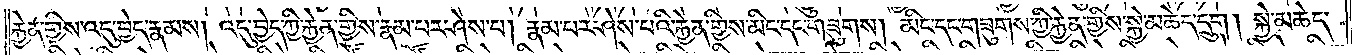རྐྱེན་གྱིས་འདུ་བྱེད་རྣམས། འདུ་བྱེད་ཀྱི་རྐྱེན་གྱིས་རྣམ་པར་ཤེས་པ། རྣམ་པར་ཤེས་པའི་རྐྱེན་གྱིས་མིང་དང་གཟུགས། མིང་དང་གཟུགས་ཀྱི་རྐྱེན་གྱིས་སྐྱེ་མཆེད་དྲུག། སྐྱེ་མཆེད་
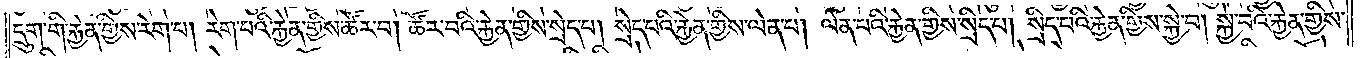དྲུག་གི་རྐྱེན་གྱིས་རེག་པ། རེག་པའི་རྐྱེན་གྱིས་ཚོར་བ། ཚོར་བའི་རྐྱེན་གྱིས་སྲེད་པ། སྲེད་པའི་རྐྱེན་གྱིས་ལེན་པ། ལེན་པའི་རྐྱེན་གྱིས་སྲིད་པ། སྲིད་པའི་རྐྱེན་གྱིས་སྐྱེ་བ། སྐྱེ་བའི་རྐྱེན་གྱིས་
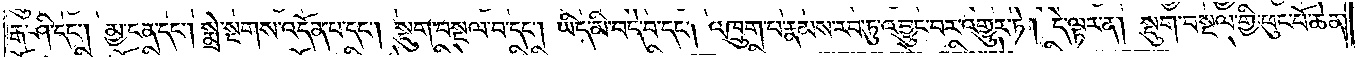རྒ་ཤི་དང༌། མྱ་ངན་དང༌། སྨྲེ་སྔགས་འདོན་པ་དང༌། སྡུག་བསྔལ་བ་དང༌། ཡིད་མི་བདེ་བ་དང༌། འཁྲུག་པ་རྣམས་རབ་ཏུ་འབྱུང་བར་འགྱུར་ཏེ། དེ་ལྟར་ན། སྡུག་བསྔལ་གྱི་ཕུང་པོ་ཆེན་
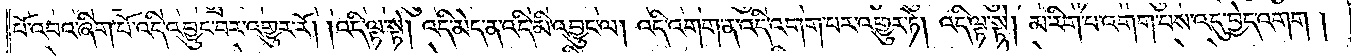པོ་འབའ་ཞིག་པོ་འདི་འབྱུང་བར་འགྱུར་རོ། །འདི་ལྟ་སྟེ། འདི་མེད་ན་འདི་མི་འབྱུང་ལ། འདི་འགག་ན་འདི་འགག་པར་འགྱུར་ཏེ། འདི་ལྟ་སྟེ། མ་རིག་པ་འགག་པས་འདུ་བྱེད་འགག །
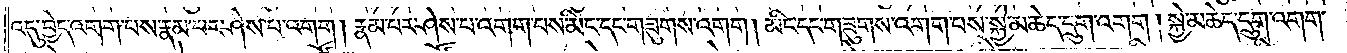འདུ་བྱེད་འགག་པས་རྣམ་པར་ཤེས་པ་འགག །རྣམ་པར་ཤེས་པ་འགག་པས་མིང་དང་གཟུགས་འགག །མིང་དང་གཟུགས་འགག་པས་སྐྱེ་མཆེད་དྲུག་འགག །སྐྱེ་མཆེད་དྲུག་འགག་
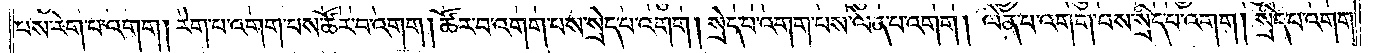པས་རེག་པ་འགག །རེག་པ་འགག་པས་ཚོར་བ་འགག །ཚོར་བ་འགག་པས་སྲེད་པ་འགག །སྲེད་པ་འགག་པས་ལེན་པ་འགག །ལེན་པ་འགག་པས་སྲིད་པ་འགག །སྲིད་པ་འགག་
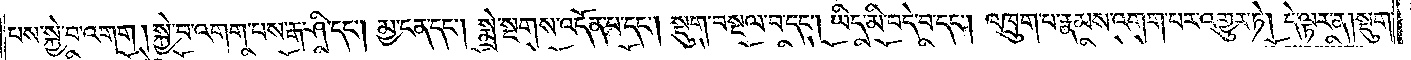པས་སྐྱེ་བ་འགག །སྐྱེ་བ་འགག་པས་རྒ་ཤི་དང༌། མྱ་ངན་དང༌། སྨྲེ་སྔགས་འདོན་པ་དང༌། སྡུག་བསྔལ་བ་དང༌། ཡིད་མི་བདེ་བ་དང༌། འཁྲུག་པ་རྣམས་འགག་པར་འགྱུར་ཏེ། དེ་ལྟར་ན། སྡུག་
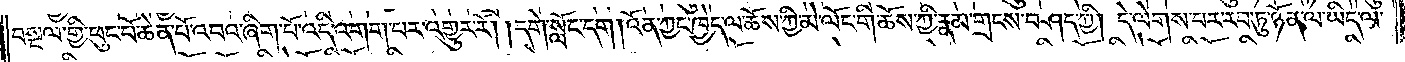བསྔལ་གྱི་ཕུང་པོ་ཆེན་པོ་འབའ་ཞིག་པོ་འདི་འགག་པར་འགྱུར་རོ། །དགེ་སློང་དག །འོན་ཀྱང་ཁྱེད་ལ་ཆོས་ཀྱི་མེ་ལོང་གི་ཆོས་ཀྱི་རྣམ་གྲངས་བཤད་ཀྱི། དེ་ལེགས་པར་རབ་ཏུ་ཉོན་ལ་ཡིད་ལ་
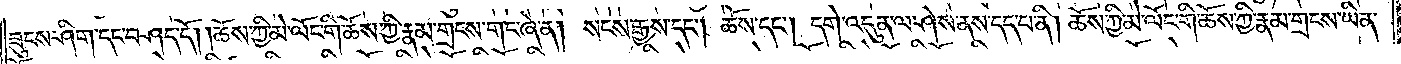ཟུངས་ཤིག་དང་བཤད་དོ། །ཆོས་ཀྱི་མེ་ལོང་གི་ཆོས་ཀྱི་རྣམ་གྲངས་གང་ཞེ་ན། སངས་རྒྱས་དང༌། ཆོས་དང༌། དགེ་འདུན་ལ་ཤེས་ནས་དད་པ་ནི། ཆོས་ཀྱི་མེ་ལོང་གི་ཆོས་ཀྱི་རྣམ་གྲངས་ཡིན་
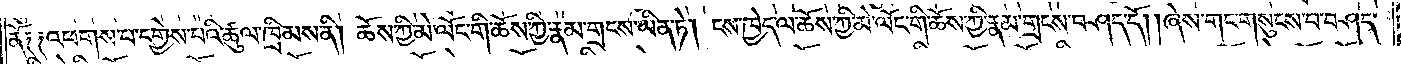ནོ༑ ༑འཕགས་པ་དགྱེས་པའི་ཚུལ་ཁྲིམས་ནི། ཆོས་ཀྱི་མེ་ལོང་གི་ཆོས་ཀྱི་རྣམ་གྲངས་ཡིན་ཏེ། ངས་ཁྱེད་ལ་ཆོས་ཀྱི་མེ་ལོང་གི་ཆོས་ཀྱི་རྣམ་གྲངས་བཤད་དོ། །ཞེས་གང་གསུངས་པ་བཤད་
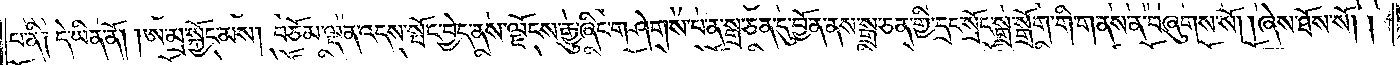པ་ནི། དེ་ཡིན་ནོ། །ཨ་མྲ་སྐྱོང་མས། བཅོམ་ལྡན་འདས་སྤོང་བྱེད་ནས་ལྗོངས་རྒྱུ་ཞིང་གཤེགས་པ་ན་སྒྲ་ཅན་དུ་བྱོན་ནས་སྒྲ་ཅན་གྱི་དྲང་སྲོང་སྒྲ་སྒྲོག་གི་གནས་ན་བཞུགས་སོ། །ཞེས་ཐོས་སོ། །
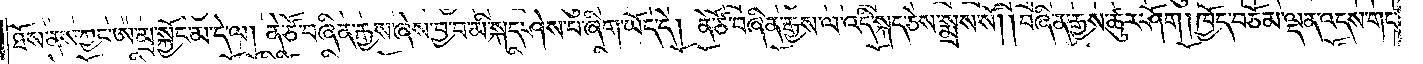ཐོས་ནས་ཀྱང་ཨ་མྲ་སྐྱོང་མ་དེ་ལ། ནེ་ཙོ་བཞིན་རྒྱས་ཞེས་བྱ་བ་མི་སྐད་ཤེས་པ་ཞིག་ཡོད་དེ། ནེ་ཙོ་བཞིན་རྒྱས་ལ་འདི་སྐད་ཅེས་སྨྲས་སོ། །བཞིན་རྒྱས་ཚུར་ཤོག །ཁྱོད་བཅོམ་ལྡན་འདས་གང་
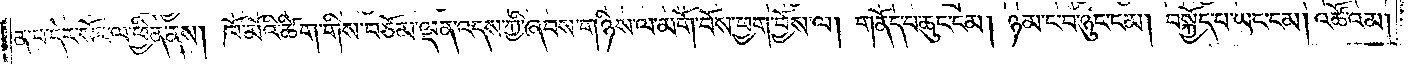ན་བ་དེར་སོང་ལ་ཕྱིན་ནས། ཁོ་མོའི་ཚིག་གིས་བཅོམ་ལྡན་འདས་ཀྱི་ཞབས་གཉིས་ལ་མགོ་བོས་ཕྱག་བྱོས་ལ། གནོད་པ་ཆུང་ངམ། ཉམ་ང་བ་ཉུང་ངམ། བསྐྱོད་པ་ཡང་ངམ། འཚོའམ།
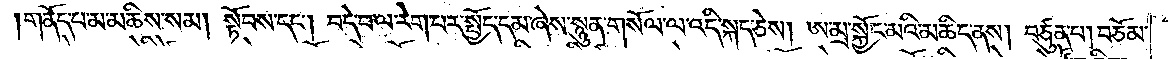།གནོད་པ་མ་མཆིས་སམ། སྟོབས་དང༌། བདེ་བ་ལ་རེག་པར་སྤྱོད་དམ་ཞེས་སྙུན་གསོལ་ལ་འདི་སྐད་ཅེས། ཨ་མྲ་སྐྱོང་མའི་མཆིད་ནས། བཙུན་པ། བཅོམ་
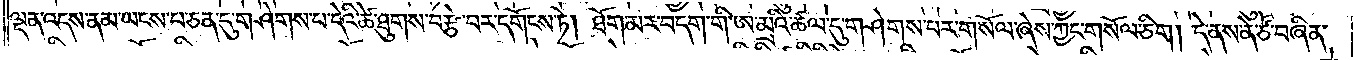ལྡན་འདས་ནམ་ཡངས་པ་ཅན་དུ་གཤེགས་པ་དེའི་ཚེ་ཐུགས་བརྩེ་བར་དགོངས་ཏེ། ཐོག་མར་བདག་གི་ཨ་མྲའི་ཚལ་དུ་གཤེགས་པར་གསོལ་ཞེས་ཀྱང་གསོལ་ཅིག །དེ་ནས་ནེ་ཙོ་བཞིན་
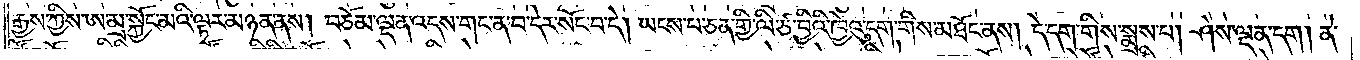རྒྱས་ཀྱིས་ཨ་མྲ་སྐྱོང་མའི་ལྟར་མཉན་ནས། བཅོམ་ལྡན་འདས་གང་ན་བ་དེར་སོང་བ་དེ། ཡངས་པ་ཅན་གྱི་ལི་ཙ་བྱིའི་ཁྱེའུ་དག་གིས་མཐོང་ནས། དེ་དག་གིས་སྨྲས་པ། ཤེས་ལྡན་དག །ནེ་
